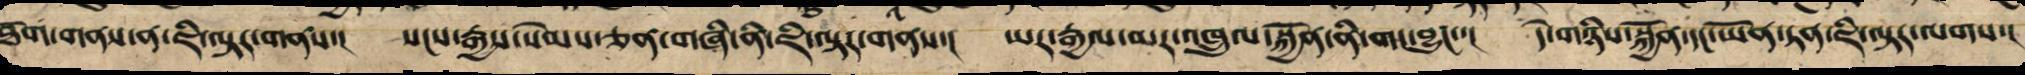ཐོག་གནས་ན་ཇི་ལྟར་གནས་། སངས་རྒྱས་སེམས་ཅན་གཞི་ནི་ཇི་ལྟར་གནས་། ཡར་རྒྱས་མར་འཁྲུལ་སྐྱོན་ནི་གང་བྱུང་་། དེ་གཉིས་སྐྱོན་དང་ཡོན་ཏན་ཇི་ལྟར་ལགས་།
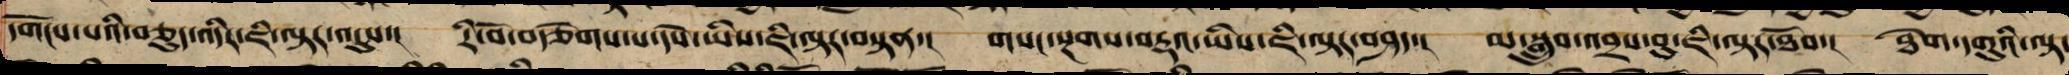དགོངས་པའི་བཅུད་འདིར་ཇི་ལྟར་འདུས་། རི་བོ་བརྩེགས་པ་དཔེ་ཡིས་ཇི་ལྟར་བསྟན་། གསང་སྔགས་བརྡའ་ཡིས་ཇི་ལྟར་བཤད་། མ་སྒྲུབ་འབྲས་བུ་ཇི་ལྟར་ཐོབ་། ཐེག་དགུའི་ལྟ་
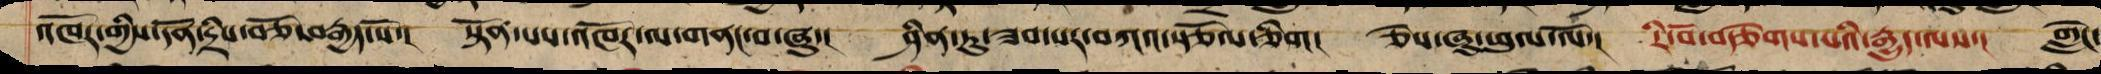འཁོར་གྱིས་དོན་དྲིས་བཅོ་བརྒྱད་པོ་། སྟོན་པས་འཁོར་ལ་གནང་བར་ཞུ་། ཤིན་ཏུ་ཟབ་པར་བཀའ་སྩོལ་ཅིག། ཅེས་ཞུ་བ་ཕུལ་ལོ་། རི་བོ་བརྩེགས་པའི་རྒྱུད་ལས་། གླེང་
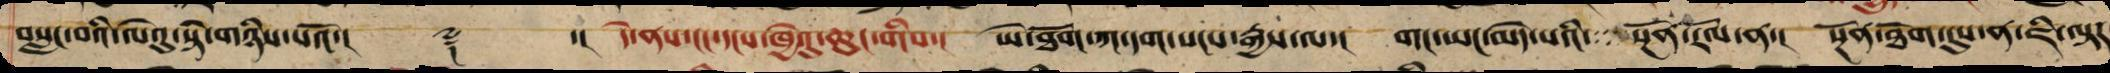བསླང་བའི་ལེའུ་སྟེ་གཉིས་པའོ་།། ༈ ་།། དེ་ནས་ངང་དངས་ཁྱེའུ་ཆུང་གིས་། ཡེ་ཐོག་ཀ་དག་སངས་རྒྱས་ལ་། གང་ཡང་མེད་པའི་སྔོན་རོལ་ན་། སྔོན་ཐོག་དུས་ན་ཇི་ལྟར
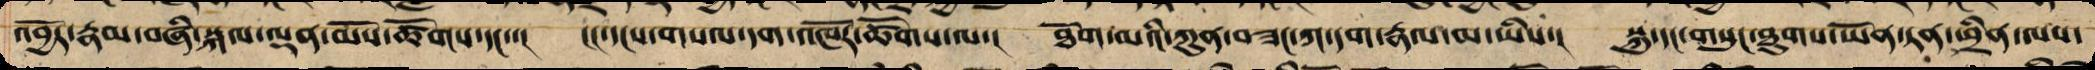འབྱོར་རྣམ་བཞི་སྐལ་ལྡན་མོས་ཚོགས་དང་་། ངང་དངས་གསལ་དག་འཁོར་ཚོགས་ལ་། ཐོག་མའི་ཀུན་བཟང་ཀ་དག་རྣལ་མ་ཡི་། སྐུ་དང་གསུང་ཐུགས་ཡོན་ཏན་ཕྲིན་ལས་
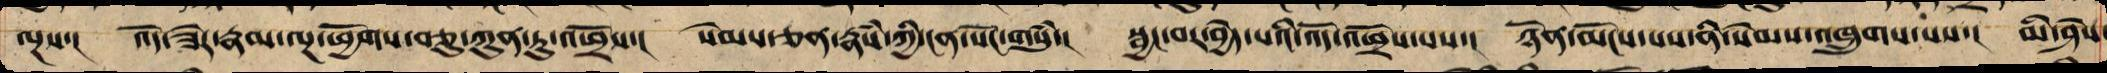ལྔས་། འོད་ཟེར་རྣམ་ལྔ་ཕྱོགས་བཅུ་ཀུན་ཏུ་འཕྲོས་། སེམས་ཅན་རྣཾས་ཀྱི་ངན་སོང་གསུཾ་། སྦྱོང་བར་བྱེད་པའི་འོད་འཕྲོས་པས་། ཉོན་མོངས་པས་ནི་སེམས་འཁྲུགས་པས་། མི་ཤེས་
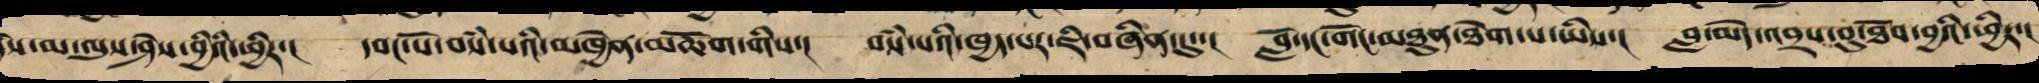ཤེས་མ་ལུས་ཤེས་བྱིའི་ཕྱིར་། དབང་པོ་བསཾ་པའི་མཁྱེན་མཆོག་གིས་། བསཾ་པའི་ཁྱད་པར་ཇི་བཞིན་དུ་། བློ་དང་གང་མཐུན་ཐེག་པ་ཡིས་། བླ་མེད་འབྲས་བུ་ཐོབ་བྱའི་ཕྱིར་།
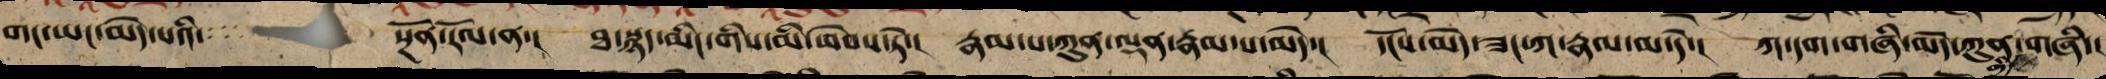གང་ཡང་མེད་པའི་སྔོན་རོལ་ན་། ཐ་སྙད་མིང་གིས་མི་ཕེབས་ཏེ་། རྣམ་པ་ཀུན་ལྡན་རྣམ་པ་མེད་། དངོས་མེད་ཟང་ཀ་རྣལ་མ་དེ་། ཀ་དག་གཞི་མེད་ཀུན་གཞི།་།
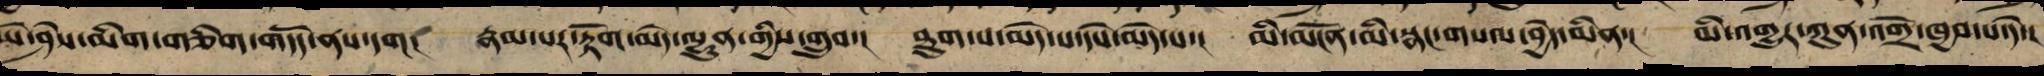ཡེ་ཤེས་མིག་གཅིག་གདོད་ནས་དག། རྣམ་པར་རྟོག་མེད་ལྷུན་གྱིས་གྲུབ་། ཐུག་པ་མེད་པ་དཔེ་མེད་པ་། མི་མངོན་མི་སྣང་གསལ་བྱེད་མིན་། མི་འགྱུར་ཀུན་འགྲོ་ཁྱབ་པ་དེ་།
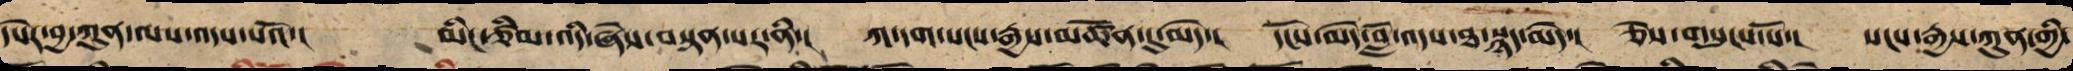དཔེར་བྱ་ཀུན་ལས་འདས་པའོ་། མིང་ཙིམ་འདི་ཞེས་བསྟན་པར་ནི་། ཀ་དག་སངས་རྒྱས་མཚོན་དུ་མེད་། དངོས་མེད་བློ་འདས་ཐ་སྙད་མེད་། ཅེས་གསུངས་སོ་། སངས་རྒྱས་ཀུན་གྱི་
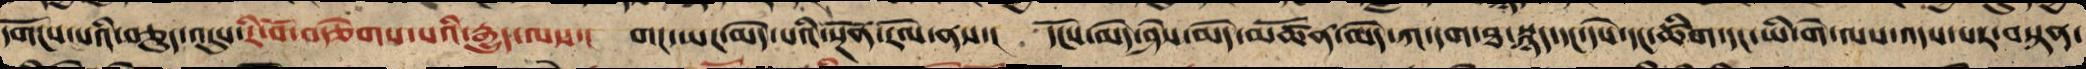དགོངས་པའི་བཅུད་འདུས་རི་བོ་བརྩེགས་པའི་རྒྱུད་ལས་། གང་ཡང་མེད་པའི་སྔོན་རོལ་ན་། དངོས་མེད་ཤེས་མེད་མཚོན་མེད་ཀ་དག་ཐ་སྙད་དང་དཔེ་དང་ཚིག་དང་ཡི་གེ་ལས་འདས་པར་བསྟན་
